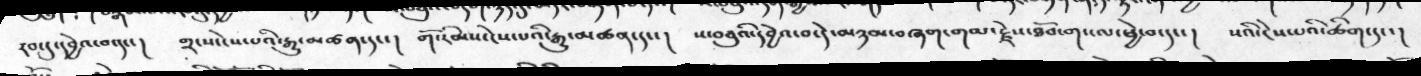རབ་དུ་དབྱེའ་བ་དང་།   གྲངས་ངེས་པའི་རྒྱུ་མཚན་དང་།   གོ་རིམས་ངེས་པའི་རྒྱུ་མཚན་དང་།  ས་བཅུའི་དབྱེའ་བ་དེ་མཉམ་བཞག་གམ་རྗེས་ཐོབ་གང་ལ་ཕྱེ་བ་དང་།   སའི་ངེས་པའི་ཚིག་དུང་།
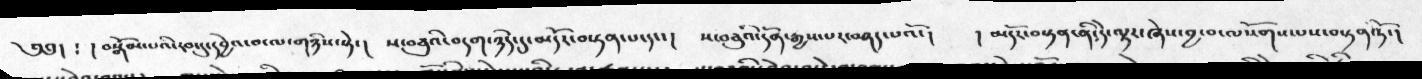༄༅། ༴  །བསྒོམ་པའི་དབང་དུ་དབྱེའ་བ་ལ་གཉིས་སྟེ་།   ས་བཅུའི་བདག་ཉིད་དུ་མདོར་བསྟན་པ་དང་།   ས་བཅུའི་དོན་རྒྱས་པར་བཤད་པའོ་།   །མདོར་བསྟན་ནི་དེ་ལྟར་ཞེས་བྱ་བ་ལསོགས་པས་བསྟན་ཏོ་།
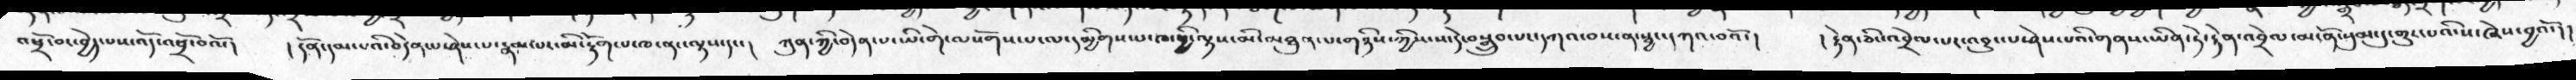འཕྲོ་བར་བྱེད་པས་འོད་འཕྲོ་བའོ་།   །དོན་དམ་པའི་བདེན་པ་ཤེས་པ་རྣམ་པར་མི་རྟོག་པ་ཁ་ནང་ལྟས་དང་།   ཀུན་ཀྱི་བདེན་པ་ཡི་གེ་ལསོགས་པ་ལ་དམྱིགས་པ་ཁ་ཕྱི་ལྟས་མི་མཐུན་པ་གཉིས་ཀྱིས་ས་དེ་བསྒྲུབ་པ་དཀའ་བས་ན་སྦྱང་དཀའ་བའོ་།   །རྟེན་ཅིང་འབྲེལ་པར་འབྱུང་པ་ཤེས་པའི་གནས་ཡིན་ཏེ་རྟེན་འབྲེལ་མངོན་སུམ་དུ་གྱུར་པའི་ས་ཞེས་བྱའོ་།
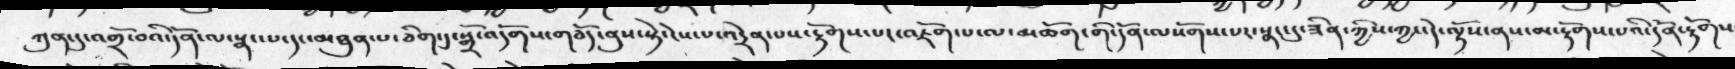ཀུན་དུ་འགྲོ་བའི་དོན་ལ་སྣང་པ་དང་མཐུན་པ་ཅིག་དུ་སྒྲོ་འདོགས་གཅོད་ནུས་སྟེ་ངེས་པ་འདྲེན་པས་རྟོགས་པར་འཇོག་པ་ལ་མཆོག་གི་དོན་ལསོགས་པར་སྣང་དུ་ཟིན་ཀྱིས་ཀྱང་དེ་ལྟོས་ནས་མ་རྟོགས་པའི་དོན་རྟོགས
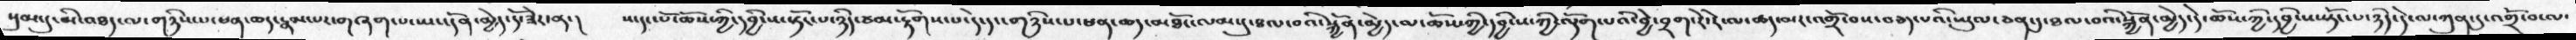སུམ་དུ་མི་འཐད་ལ་གཉིས་པ་ཕན་ཆད་རྣམ་པར་གཞག་པ་ཡང་དོན་མྱེད་དུ་ཟེར་ན་།   ས་དང་པོ་ཆོས་ཀྱི་དབྱིངས་སྟོང་པ་ཉིད་ཙམ་རྟོགས་པ་དེ་དང་གཉིས་པ་ཕན་ཆད་མཐོང་ལམ་དུ་ཐལ་བའི་སྐྱོན་མྱེད་ལ་ཆོས་ཀྱི་དབྱིངས་ཀྱི་ལྡོག་པའི་བྱེ་བྲག་རེ་རེ་ལ་ཚད་མར་འགྲོ་བས་བཅད་པའི་ཡུལ་ཅན་དུ་ཐལ་བའི་སྐྱོན་མྱེད་དེ་ཆོས་ཀྱི་དབྱིངས་སྟོང་པ་ཉིད་དེ་ལ་ཀུན་དུ་འགྲོ་བ་ལ་
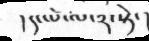། དང་པོ་ལ་༢་སྟེ་།
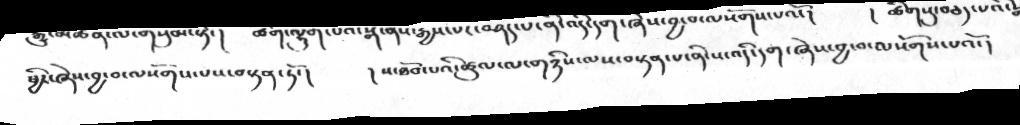ཕྱིར་ཞེས་བྱ་བ་ལསོགས་པས་བསྟན་ཏོ་།   །ས་ཐོབ་པའི་ཚུལ་ལ་གཉིས་ལས་བསྟན་པ་ནི་ས་འདི་དག་ཞེས་བྱ་བ་ལསོགས་པའོ་།
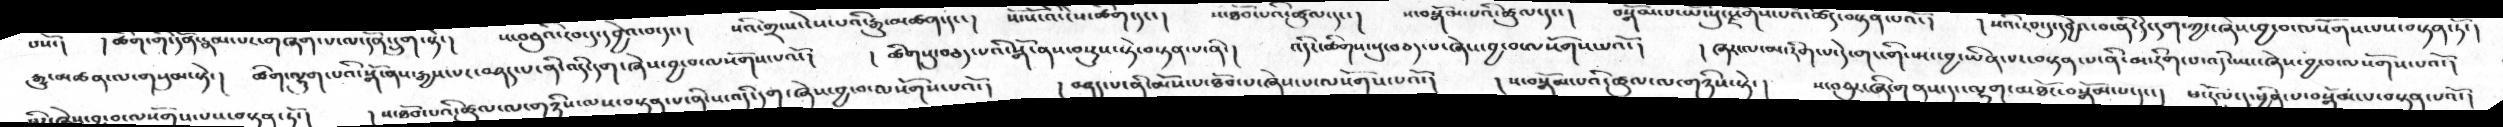རྒྱུ་མཚན་ལ་གསུམ་སྟེ་།  ཚིག་ལྷུག་པའི་སྒོ་ནས་རྒྱས་པར་བཤད་པ་ནི་འདི་དག་ཞེས་བྱ་བ་ལསོགས་པའོ་།   །ཚིགསུ་བཅད་པའི་སྒོ་ནས་བསྡུས་སྟེ་བསྟན་པ་ནི་།  འདི་ཚིགས་སུ་བཅད་པ་ཞེས་བྱ་བ་ལསོགས་པའོ་།   །ཞར་ལ་མ་རིག་པ་དེ་གང་གི་སྤང་བྱ་ཡིན་པར་བསྟན་པ་ནི་མ་རིག་པ་འདི་སྤང་ཞེས་བྱ་བ་ལསོགས་པའོ་།
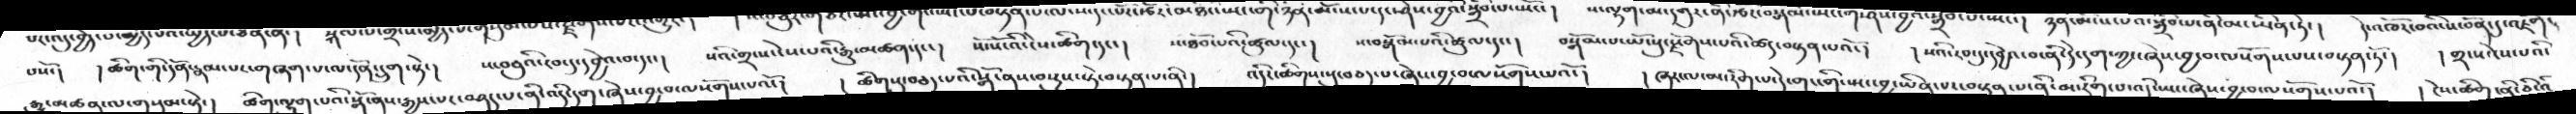པསོ་།   །ཚིག་གི་དོན་རྣམ་པར་གཞག་པ་ལ་དོན་དྲུག་སྟེ་།   ས་བཅུའི་དབང་དུ་དབྱེའ་བ་དང་།   སའི་གྲངས་ངེས་པའི་རྒྱུ་མཚན་དང་།   སོ་སོ་འི་ངེས་ཚིག་དང་།  ས་ཐོབ་པའི་ཚུལ་དང་།   ས་བསྒོམ་པའི་ཚུལ་དང་།  བསྒོམ་པ་ཡོངསུ་རྫོགས་པའི་ཚད་བསྟན་པའོ་།   །སའི་རབ་དུ་དབྱེའ་བ་ནི་དེ་དག་ཀྱང་ཞེས་བྱ་བ་ལསོགས་པས་བསྟན་ཏོ་།  །གྲངས་ངེས་པའི་
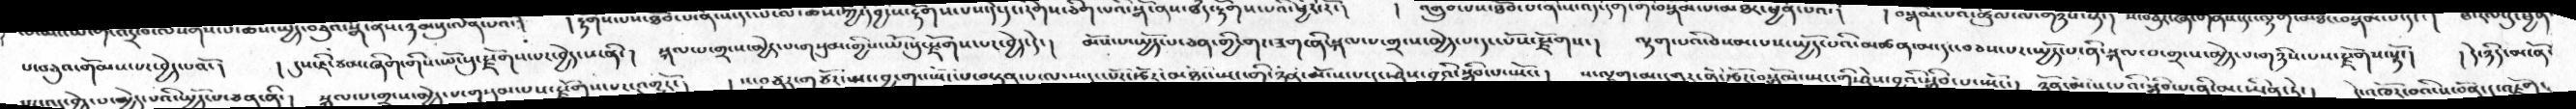ས་བཅུའ་གོམས་པར་ཕྱེད་པའོ་།   །དུས་ཇི་ཙམ་ཞིག་གིས་ཡོངསུ་རྫོགས་པར་བྱེད་པ་ནི་།   སྐལ་པ་གྲངས་མྱེད་པ་གསུམ་གྱིས་ཡོངསུ་་རྫོགས་པར་བྱེད་དེ་།   མོས་པ་སྤྱོད་པ་ཅན་གྱི་གང་ཟག་ནི་སྐལ་པ་གྲངས་མྱེད་པ་དང་པོས་རྫོགས་།   ལྷག་པའི་བསམ་པས་སྤྱོད་པའི་མཚན་མ་དང་བཅས་པར་སྤྱོད་པ་ནི་སྐལ་བ་གྲངས་མྱེད་པ་གཉིས་པས་རྫོགས་སྷོ་།   །དེ་ཉིད་མངོན་
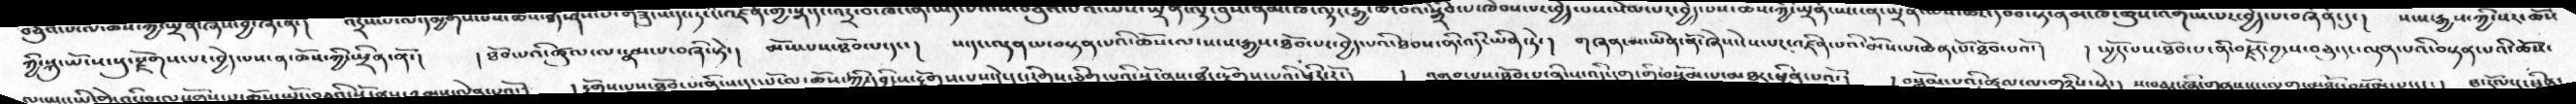ཀྱི་སྐུ་ཡོངས་སུ་རྫོགས་པར་བྱེད་པས་ན་ཆོས་ཀྱི་སྤྲིན་ནོ་།  །ཐོབ་པའི་ཚུལ་ལ་རྣམ་པ་བཞི་སྟེ་།   མོས་པས་ཐོབ་པ་དང་།   ས་དང་ལྡན་པ་བསྟན་པའི་ཆོས་ལ་སངས་རྒྱས་ཐོབ་པར་བྱེད་པའི་ཐབས་ནི་འདི་ཡིན་ཏེ་།  གཞན་མ་ཡིན་ནོ་ཞེས་ངེས་པར་འཛིན་པའི་མོས་པ་ཆེན་པོ་ཐོབ་པའོ་།  །སྤྱོད་པས་ཐོབ་པ་ནི་བརྗོད་བྱ་ས་བཅུ་དང་ལྡན་པའི་བསྟན་པའི་ཆོས་
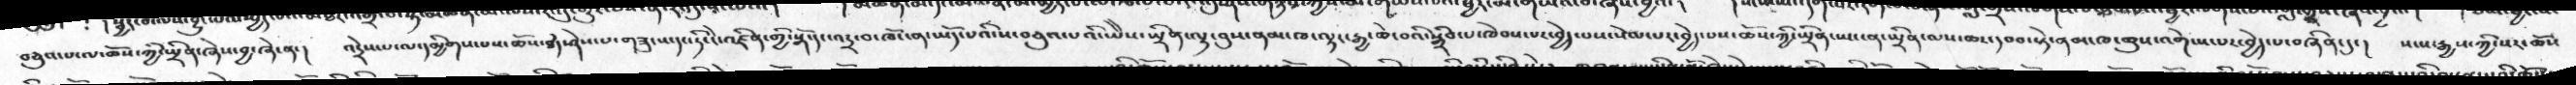བཅུའ་པ་ལ་ཆོས་ཀྱི་སྤྲིན་ཞེས་བྱ་ཞེ་ན་།   འདྲེས་པ་ལ་དམྱིགས་པས་ཆོས་ཐཾད་ཤེས་པ་གཟུངས་དང་ཏིང་ངེ་འཛིན་གྱི་སྒོ་དང་འདྲ་བ་ཁོང་ན་ཡོད་པའི་ས་བཅུའ་པའི་ཡཻས་སྤྲིན་ལྟ་བུས་ནམ་ཁ་ལྟར་རྒྱ་ཆེ་བའི་སྒྲིབ་པ་ཁེབས་པར་བྱེད་པས་སེམ་པར་བྱེད་པས་ཆོས་ཀྱི་སྤྲིན་ཡང་ན་སྤྲིན་ལས་ཆར་དབབ་སྟེ་ནམ་ཁ་ཆུས་འགེངས་པར་བྱེད་པ་བཞིན་དུ་།  སངས་རྒྱས་ཀྱི་སར་ཆོས་
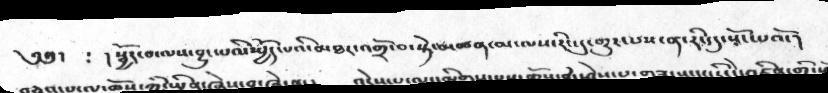༄༅་  ༴  །སྦྱོར་བ་ལས་བྱུང་པའི་སྤྱོད་པའི་མཐར་འགྲོ་བ་སྟེ་མཚན་མ་ལས་རིང་དུ་གྱུར་པས་ན་རིང་དུ་སོང་པའོ་།
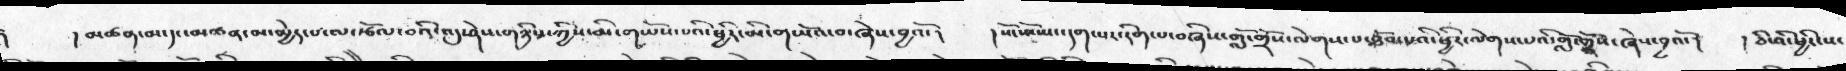།    །མཚན་མ་དང་མཚན་མ་མྱེད་པ་ལ་རྩོལ་བའི་འདུ་ཤེས་གཉིས་ཀྱིས་མི་གཡོས་པའི་ཕྱིར་མི་གཡོའ་བ་ཞེས་བྱའོ་།   །སོ་སོ་ཡང་དག་པར་རིག་པ་བཞིས་གློ་གྲོས་ལེགས་པ་ཐོབ་པའི་ཕྱིར་ལེགས་པའི་གློ་གྲོས་ཞེས་བྱའོ་།  །ཅི་འི་ཕྱིར་ས་
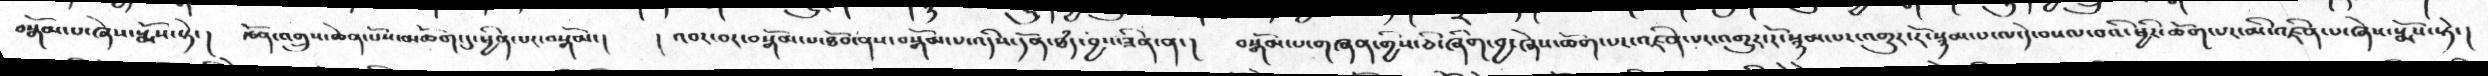བསྒོམ་པ་ཞེས་སྨོས་སྟེ་།   རྩོན་འགྲུས་ཆེན་པོས་མཆོག་དུ་ཕྱིན་པར་བསྒོམ་།   ། འབར་བར་བསྒོམ་པ་ཐོབ་ནས་བསྒོམ་པ་འདིས་དོན་ཐཾད་བྱས་ཟིན་ན་།   བསྒོམ་པ་གཞན་གྱིས་ཅི་ཞིག་བྱ་ཞེས་ཆོག་པར་འཛིན་པར་འགྱུར་རོ་སྙམ་པར་འགྱུར་རོ་སྙམ་པ་ལ་དེ་བསལ་བའི་ཕྱིར་ཆོག་པར་མི་འཛིན་པ་ཞེས་སྨོས་སྟེ་།
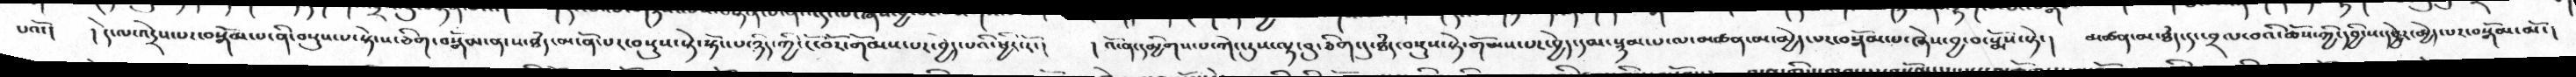པའོ་།   །དེ་ལ་འདྲེས་པར་བསྒོམ་པ་ནི་བསྡུས་པ་སྟེ་ས་ཅིག་བསྒོམ་ན་ས་ཐཾད་མངོན་པར་བསྡུས་སྟེ་སྟོང་པ་ཉིད་ཀྱི་ངོ་བོར་གོམས་པར་བྱེད་པའི་ཕྱིར་རོ་།    ། འོ་ན་དམྱིགས་པ་ཀེང་རུས་ལྟ་བུ་ཅིག་དུ་ཐཾད་བསྡུས་སྟེ་གོམས་པར་བྱེད་དམ་སྙམ་པ་ལ་མཚན་མ་མྱེད་པར་བསྒོམ་པ་ཞེས་བྱ་བ་སྨོས་སྟེ་།   མཚན་མ་ཐཾད་དུ་བྲལ་བའི་ཆོས་ཀྱི་དབྱིངས་དབྱེར་མྱེད་པར་བསྒོམ་མོ་།
